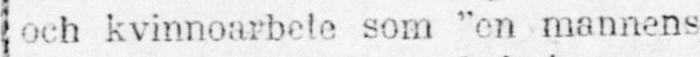och kvinnoarbete som “en mannens
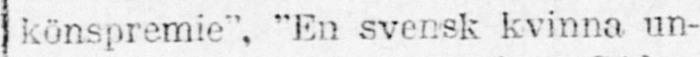könspremie“, “En svensk kvinna un-
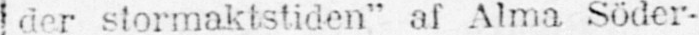der stormaktstiden“ af Alma Söder-
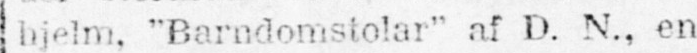hjelm, “Barndomstolar“ af D. N., en
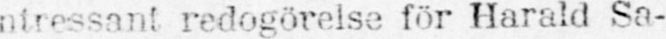intressant redogörelse för Harald Sa-
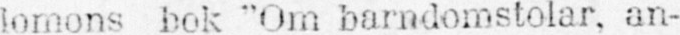lomons bok “Om barndomstolar, an-
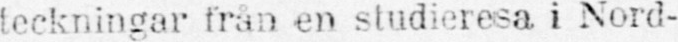teckningar från en studieresa i Nord-
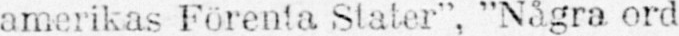amerikas Förenta Stater“, “Några ord
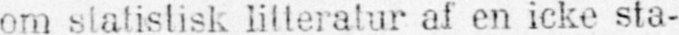om statistisk litteratur af en icke sta-
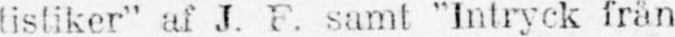tistiker“ af J. F. samt “Intryck från
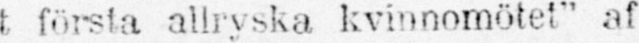det första allryska kvinnomötet“ af
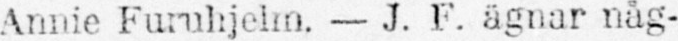Annie Furuhjelm. — J. F. ägnar någ-
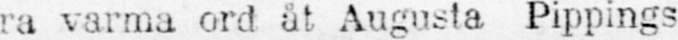ra varma ord åt Augusta Pippings
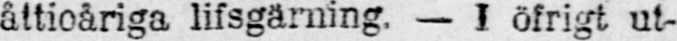åttioåriga lifsgärning. — I öfrigt ut-
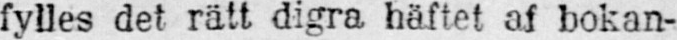fylles det rätt digra häftet af bokan-
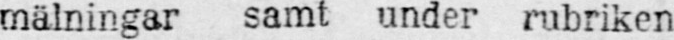mälningar samt under rubriken
